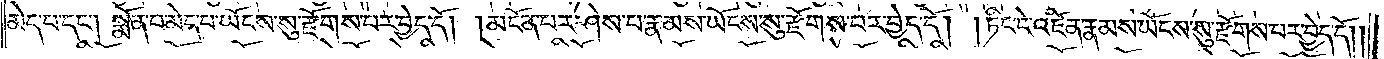མེད་པ་དང༌། སྨོན་པ་མེད་པ་ཡོངས་སུ་རྫོགས་པར་བྱེད་དོ། །མངོན་པར་ཤེས་པ་རྣམས་ཡོངས་སུ་རྫོགས་པར་བྱེད་དོ། །ཏིང་ངེ་འཛིན་རྣམས་ཡོངས་སུ་རྫོགས་པར་བྱེད་དོ། །
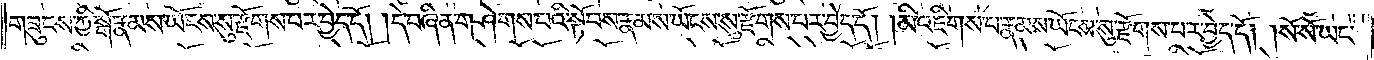གཟུངས་ཀྱི་སྒོ་རྣམས་ཡོངས་སུ་རྫོགས་པར་བྱེད་དོ། །དེ་བཞིན་གཤེགས་པའི་སྟོབས་རྣམས་ཡོངས་སུ་རྫོགས་པར་བྱེད་དོ། །མི་འཇིགས་པ་རྣམས་ཡོངས་སུ་རྫོགས་པར་བྱེད་དོ། །སོ་སོ་ཡང་
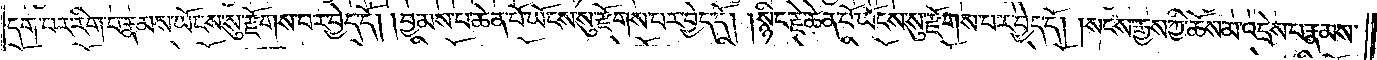དག་པར་རིག་པ་རྣམས་ཡོངས་སུ་རྫོགས་པར་བྱེད་དོ། །བྱམས་པ་ཆེན་པོ་ཡོངས་སུ་རྫོགས་པར་བྱེད་དོ། །སྙིང་རྗེ་ཆེན་པོ་ཡོངས་སུ་རྫོགས་པར་བྱེད་དོ། །སངས་རྒྱས་ཀྱི་ཆོས་མ་འདྲེས་པ་རྣམས་
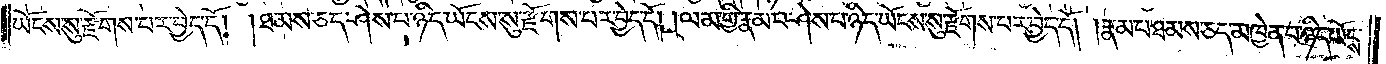ཡོངས་སུ་རྫོགས་པར་བྱེད་དོ། །ཐམས་ཅད་ཤེས་པ་ཉིད་ཡོངས་སུ་རྫོགས་པར་བྱེད་དོ། །ལམ་གྱི་རྣམ་པ་ཤེས་པ་ཉིད་ཡོངས་སུ་རྫོགས་པར་བྱེད་དོ། །རྣམ་པ་ཐམས་ཅད་མཁྱེན་པ་ཉིད་ཡོངས་
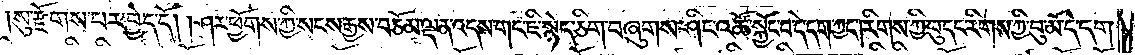སུ་རྫོགས་པར་བྱེད་དོ། །ཤར་ཕྱོགས་ཀྱི་སངས་རྒྱས་བཅོམ་ལྡན་འདས་གང་ཇི་སྙེད་ཅིག་བཞུགས་ཤིང་འཆོ་སྐྱོང་བ་དེ་དག་ཀྱང༌། རིགས་ཀྱི་བུ་དང་རིགས་ཀྱི་བུ་མོ་དེ་དག་
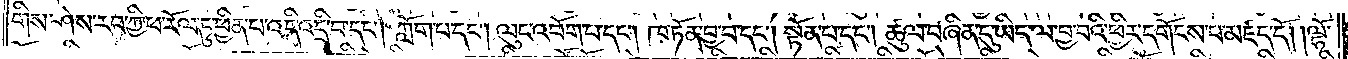གིས་ཤེས་རབ་ཀྱི་ཕ་རོལ་ཏུ་ཕྱིན་པ་འདི་འདྲི་བ་དང༌། ཀློག་པ་དང༌། ལུང་འབོག་པ་དང༌། ཁ་ཏོན་བྱ་བ་དང༌། སྟོན་པ་དང༌། ཚུལ་བཞིན་དུ་ཡིད་ལ་བྱ་བའི་ཕྱིར་དགོངས་པ་མཛད་དོ། །ལྷོ་
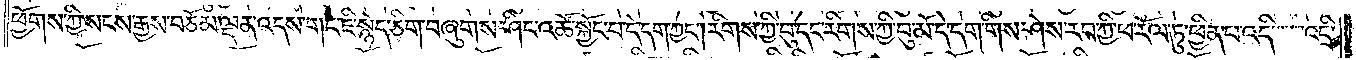ཕྱོགས་ཀྱི་སངས་རྒྱས་བཅོམ་ལྡན་འདས་གང་ཇི་སྙེད་ཅིག་བཞུགས་ཤིང་འཚོ་སྐྱོང་བ་དེ་དག་ཀྱང༌། རིགས་ཀྱི་བུ་དང་རིགས་ཀྱི་བུ་མོ་དེ་དག་གིས་ཤེས་རབ་ཀྱི་ཕ་རོལ་ཏུ་ཕྱིན་པ་འདི་འདྲི་
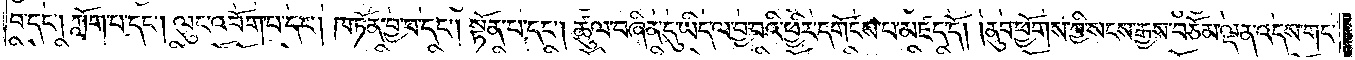བ་དང༌། ཀློག་པ་དང༌། ལུང་འབོག་པ་དང༌། ཁ་ཏོན་བྱ་བ་དང༌། སྟོན་པ་དང༌། ཚུལ་བཞིན་དུ་ཡིད་ལ་བྱ་བའི་ཕྱིར་དགོངས་པ་མཛད་དོ། །ནུབ་ཕྱོགས་ཀྱི་སངས་རྒྱས་བཅོམ་ལྡན་འདས་གང་
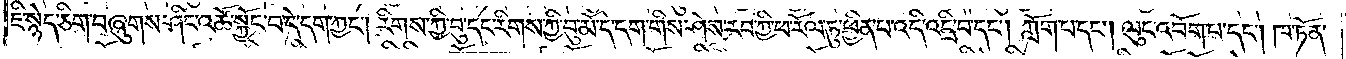ཇི་སྙེད་ཅིག་བཞུགས་ཤིང་འཚོ་སྐྱོང་བ་དེ་དག་ཀྱང༌། རིགས་ཀྱི་བུ་དང་རིགས་ཀྱི་བུ་མོ་དེ་དག་གིས་ཤེས་རབ་ཀྱི་ཕ་རོལ་ཏུ་ཕྱིན་པ་འདི་འདྲི་བ་དང༌། ཀློག་པ་དང༌། ལུང་འབོག་པ་དང༌། ཁ་ཏོན་
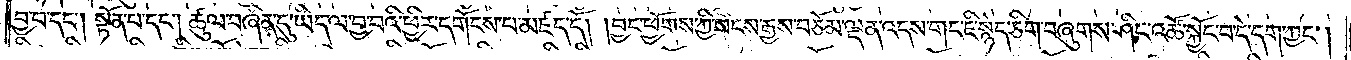བྱ་བ་དང༌། སྟོན་པ་དང༌། ཚུལ་བཞིན་དུ་ཡིད་ལ་བྱ་བའི་ཕྱིར་དགོངས་པ་མཛད་དོ། །བྱང་ཕྱོགས་ཀྱི་སངས་རྒྱས་བཅོམ་ལྡན་འདས་གང་ཇི་སྙེད་ཅིག་བཞུགས་ཤིང་འཆོ་སྐྱོང་བ་དེ་དག་ཀྱང༌།
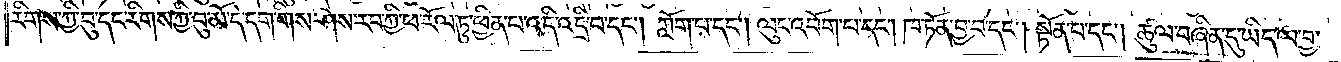རིགས་ཀྱི་བུ་དང་རིགས་ཀྱི་བུ་མོ་དེ་དག་གིས་ཤེས་རབ་ཀྱི་ཕ་རོལ་ཏུ་ཕྱིན་པ་འདི་འདྲི་བ་དང༌། ཀློག་པ་དང༌། ལུང་འབོག་པ་དང༌། ཁ་ཏོན་བྱ་བ་དང༌། སྟོན་པ་དང༌། ཚུལ་བཞིན་དུ་ཡིད་ལ་བྱ་
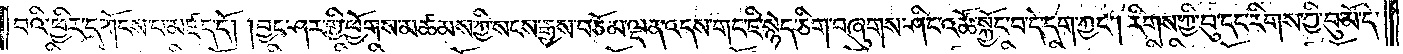བའི་ཕྱིར་དགོངས་པ་མཛད་དོ། །བྱང་ཤར་གྱི་ཕྱོགས་མཚམས་ཀྱི་སངས་རྒྱས་བཅོམ་ལྡན་འདས་གང་ཇི་སྙེད་ཅིག་བཞུགས་ཤིང་འཚོ་སྐྱོང་བ་དེ་དག་ཀྱང༌། རིགས་ཀྱི་བུ་དང་རིགས་ཀྱི་བུ་མོ་དེ་
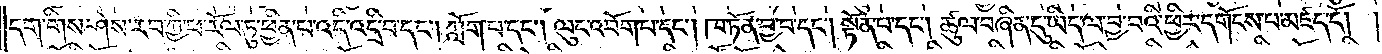དག་གིས་ཤེས་རབ་ཀྱི་ཕ་རོལ་ཏུ་ཕྱིན་པ་འདི་འདྲི་བ་དང༌། ཀློག་པ་དང༌། ལུང་འབོག་པ་དང༌། ཁ་ཏོན་བྱ་བ་དང༌། སྟོན་པ་དང༌། ཚུལ་བཞིན་དུ་ཡིད་ལ་བྱ་བའི་ཕྱིར་དགོངས་པ་མཛད་དོ། །
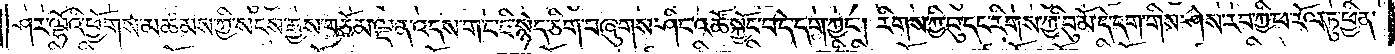ཤར་ལྷོའི་ཕྱོགས་མཚམས་ཀྱི་སངས་རྒྱས་བཅོམ་ལྡན་འདས་གང་ཇི་སྙེད་ཅིག་བཞུགས་ཤིང་འཚོ་སྐྱོང་བ་དེ་དག་ཀྱང༌། རིགས་ཀྱི་བུ་དང་རིགས་ཀྱི་བུ་མོ་དེ་དག་གིས་ཤེས་རབ་ཀྱི་ཕ་རོལ་ཏུ་ཕྱིན་
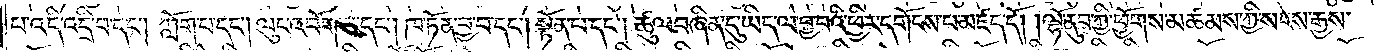པ་འདི་འདྲི་བ་དང༌། ཀློག་པ་དང༌། ལུང་འབོག་པ་དང༌། ཁ་ཏོན་བྱ་བ་དང༌། སྟོན་པ་དང༌། ཚུལ་བཞིན་དུ་ཡིད་ལ་བྱ་བའི་ཕྱིར་དགོངས་པ་མཛད་དོ། །ལྷོ་ནུབ་ཀྱི་ཕྱོགས་མཚམས་ཀྱི་སངས་རྒྱས་
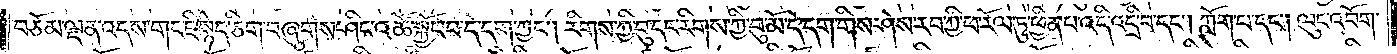བཅོམ་ལྡན་འདས་གང་ཇི་སྙེད་ཅིག་བཞུགས་ཤིང་འཚོ་སྐྱོང་བ་དེ་དག་ཀྱང༌། རིགས་ཀྱི་བུ་དང་རིགས་ཀྱི་བུ་མོ་དེ་དག་གིས་ཤེས་རབ་ཀྱི་ཕ་རོལ་ཏུ་ཕྱིན་པ་འདི་འདྲི་བ་དང༌། ཀློག་པ་དང༌། ལུང་འབོག་
